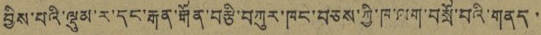བྱིས་པའི་ལྡུམ་ར་དང་རྒན་རྒོན་བརྩི་བཀུར་ཁང་བཅས་ཀྱི་ཁ་ལག་བསྲོ་བའི་གནད་
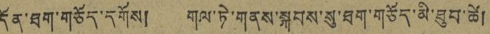དོན་ཐག་གཅོད་དགོས། གལ་ཏེ་གནས་སྐབས་སུ་ཐག་གཅོད་མི་ཐུབ་ཚེ།
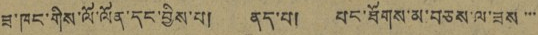ཟ་ཁང་གིས་ལོ་ལོན་དང་བྱིས་པ། ནད་པ། པང་ཐོགས་མ་བཅས་ལ་ཟས་་་
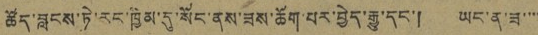ཚོད་བླངས་ཏེ་རང་ཁྱིམ་དུ་སོང་ནས་ཟས་ཆོག་པར་བྱེད་རྒྱུ་དང་། ཡང་ན་ཟ་་་་
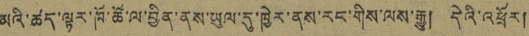མའི་ཚད་ལྟར་ཁོ་ཚོ་ལ་བྱིན་ནས་ཡུལ་དུ་ཁྱེར་ནས་རང་གིས་ལས་རྒྱུ། དེའི་འཕྲོར།
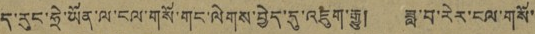ད་རུང་ཧྲེ་ཡོན་ལ་ངལ་གསོ་གང་ལེགས་བྱེད་དུ་འཇུག་རྒྱུ། ཟླ་བ་རེར་ངལ་གསོ་
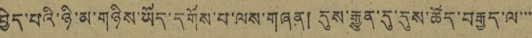བྱེད་པའི་ཉི་མ་གཉིས་ཡོད་དགོས་པ་ལས་གཞན། དུས་རྒྱུན་དུ་དུས་ཚོད་བརྒྱད་ལ་་་
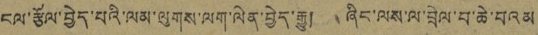ངལ་རྩོལ་བྱེད་པའི་ལམ་ལུགས་ལག་ལེན་བྱེད་རྒྱུ། ཞིང་ལས་ལ་བྲེལ་བ་ཆེ་བའམ
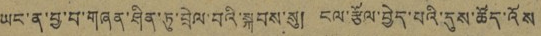ཡང་ན་བྱ་བ་གཞན་ཤིན་ཏུ་བྲེལ་བའི་སྐབས་སུ། ངལ་རྩོལ་བྱེད་པའི་དུས་ཚོད་འོས
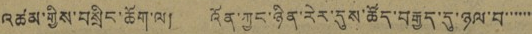འཚམ་གྱིས་བསྲིང་ཆོག་ལ། འོན་ཀྱང་ཉིན་རེར་དུས་ཚོད་བརྒྱད་དུ་ཉལ་བ་་་་་་་
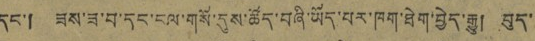དང་། ཟས་ཟ་བ་དང་ངལ་གསོ་དུས་ཚོད་བཞི་ཡོད་པར་ཁག་ཐེག་བྱེད་རྒྱུ། བུད་
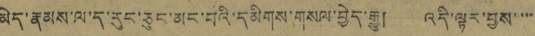མེད་རྣམས་ལ་ད་རུང་ཅུང་མང་བའི་དམིགས་གསལ་བྱེད་རྒྱུ། འདི་ལྟར་བྱས་་་་
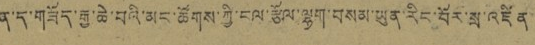ན་ད་གཟོད་རྒྱ་ཆེ་བའི་མང་ཚོགས་ཀྱི་ངལ་རྩོལ་ལྷག་བསམ་ཡུན་རིང་བོར་སྲ་འཛིན
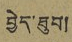བྱེད་ཐུབ།
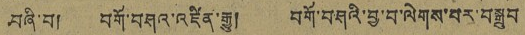བཞི་བ། བགོ་བཤའ་འཛིན་རྒྱུ། བགོ་བཤའི་བྱ་བ་ལེགས་པར་བསྒྲུབ
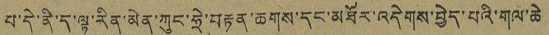པ་དེ་ནི་ད་ལྟ་རིན་མེན་ཀུང་ཧྲེ་བརྟན་ཆགས་དང་མཐོར་འདེགས་བྱེད་པའི་གལ་ཆེ
